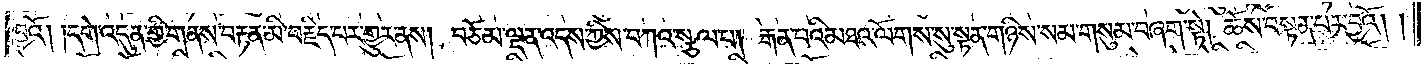བྱའོ། །དགེ་འདུན་གྱི་གནས་བརྟན་མི་བརྗིད་པར་གྱུར་ནས། བཅོམ་ལྡན་འདས་ཀྱིས་བཀའ་སྩལ་པ། རྒན་པའི་མཐའ་ལོགས་སུ་སྟན་གཉིས་སམ་གསུམ་བཞག་སྟེ། ཆོས་བསྟན་པར་བྱའོ། །
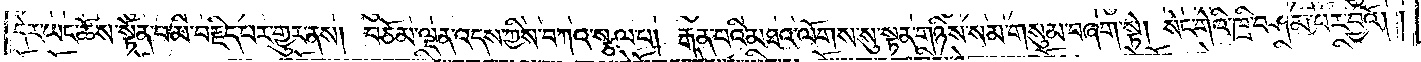དེར་ཡང་ཆོས་སྟོན་པ་མི་བརྗིད་པར་གྱུར་ནས། བཅོམ་ལྡན་འདས་ཀྱིས་བཀའ་སྩལ་པ། རྒན་པའི་མཐའ་ལོགས་སུ་སྟན་གཉིས་སམ་གསུམ་བཞག་སྟེ། སེང་གེའི་ཁྲི་བཤམ་པར་བྱའོ། །
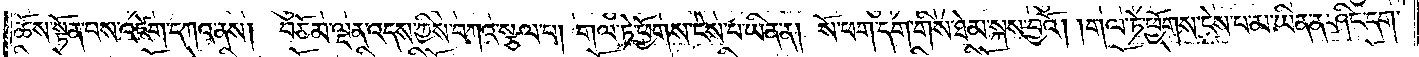ཆོས་སྟོན་པས་འཛེག་དཀའ་ནས། བཅོམ་ལྡན་འདས་ཀྱིས་བཀའ་སྩལ་པ། གལ་ཏེ་ཕྱོགས་ངེས་པ་ཡིན་ན། སོ་ཕག་དག་གིས་ཐེམ་སྐས་བྱའོ། །གལ་ཏེ་ཕྱོགས་ངེས་པ་མ་ཡིན་ན་ཤིང་དག་
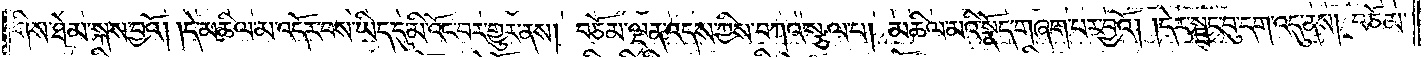གིས་ཐེམ་སྐས་བྱའོ། །དེ་མཆིལ་མ་འདོར་བས་ཡིད་དུ་མི་འོང་བར་གྱུར་ནས། བཅོམ་ལྡན་འདས་ཀྱིས་བཀའ་སྩལ་པ། མཆིལ་མའི་སྣོད་གཞག་པར་བྱའོ། །དེར་སྦྲང་བུ་དག་འདུ་ནས། བཅོམ་
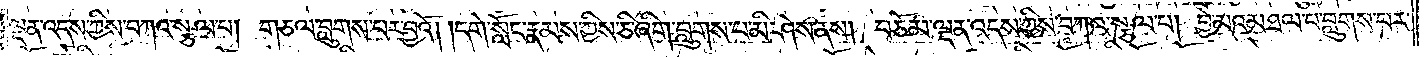ལྡན་འདས་ཀྱིས་བཀའ་སྩལ་པ། གཅལ་བླུགས་པར་བྱའོ། །དགེ་སློང་རྣམས་ཀྱིས་ཅི་ཞིག་བླུགས་པ་མི་ཤེས་ནས། བཅོམ་ལྡན་འདས་ཀྱིས་བཀའ་སྩལ་པ། བྱེ་མའམ་ཐལ་པ་བླུགས་པར་
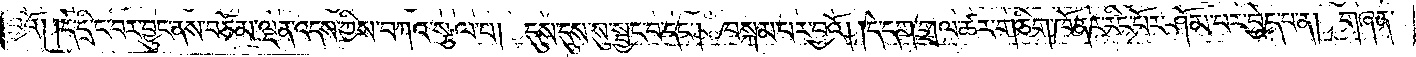བྱའོ། །དེ་དྲི་ང་བར་བྱུང་ནས་བཅོམ་ལྡན་འདས་ཀྱིས་བཀའ་སྩལ་པ། དུས་དུས་སུ་སྦྱང་བ་དང༌། བསྐམ་པར་བྱའོ། །དེ་དག་གྲལ་ཚར་གཅིག་ཁོ་ནར་རིང་པོར་ཤོམ་པར་བྱེད་པ་ན། གཞན་
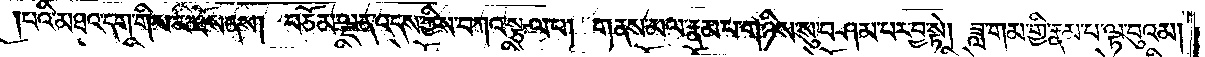པའི་མཐའ་དག་གིས་མི་ཐོས་ནས། བཅོམ་ལྡན་འདས་ཀྱིས་བཀའ་སྩལ་པ། གནས་མལ་རྣམ་པ་གཉིས་སུ་བཤམ་པར་བྱ་སྟེ། ཟླ་གམ་གྱི་རྣམ་པ་ལྟ་བུའམ་
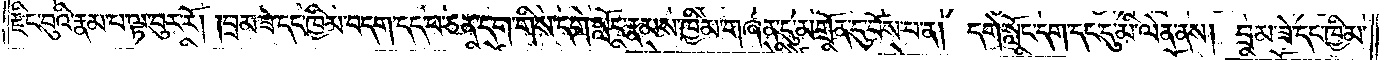རྫིང་བུའི་རྣམ་པ་ལྟ་བུར་རོ། །བྲམ་ཟེ་དང་ཁྱིམ་བདག་དད་པ་ཅན་དག་གིས་དགེ་སློང་རྣམས་ཁྱིམ་གཞན་དུ་མགྲོན་དུ་བོས་པ་ན། དགེ་སློང་དག་དང་དུ་མི་ལེན་ནས། བྲམ་ཟེ་དང་ཁྱིམ་
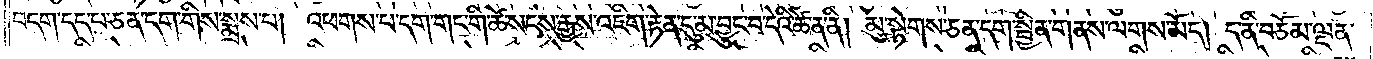བདག་དད་པ་ཅན་དག་གིས་སྨྲས་པ། འཕགས་པ་དག་གང་གི་ཚེ་སངས་རྒྱས་འཇིག་རྟེན་དུ་མ་བྱུང་བ་དེའི་ཚེ་ན་ནི། མུ་སྟེགས་ཅན་དག་སྦྱིན་གནས་ལགས་མོད། ད་ནི་བཅོམ་ལྡན་
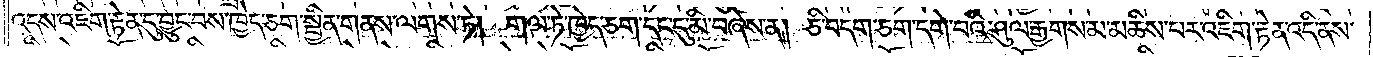འདས་འཇིག་རྟེན་དུ་བྱུང་བས་ཁྱེད་ཅག་སྦྱིན་གནས་ལགས་ཏེ། གལ་ཏེ་ཁྱེད་ཅག་དང་དུ་མི་བཞེས་ན། ཅི་བདག་ཅག་དགེ་བའི་ཤུལ་རྒྱགས་མ་མཆིས་པར་འཇིག་རྟེན་འདི་ནས་
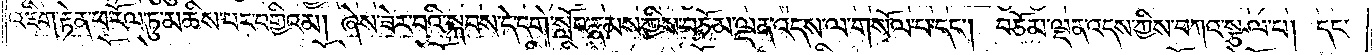འཇིག་རྟེན་ཕ་རོལ་ཏུ་མཆིས་པར་བགྱིའམ། ཞེས་ཟེར་བའི་སྐབས་དེ་དགེ་སློང་རྣམས་ཀྱིས་བཅོམ་ལྡན་འདས་ལ་གསོལ་པ་དང༌། བཅོམ་ལྡན་འདས་ཀྱིས་བཀའ་སྩལ་པ། དང་
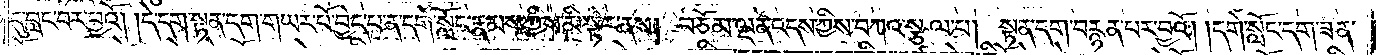དུ་བླང་བར་བྱའོ། །དེ་དག་སྟན་དག་གཡར་པོ་བྱེད་པ་ན་དགེ་སློང་རྣམས་ཀྱིས་མི་སྟེར་ནས། བཅོམ་ལྡན་འདས་ཀྱིས་བཀའ་སྩལ་པ། སྟན་དག་བརྙན་པར་བྱའོ། །དགེ་སློང་དག་ཟན་
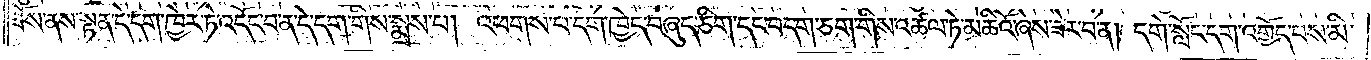ཟོས་ནས་སྟན་དེ་དག་ཁྱེར་ཏེ་འདོང་བ་ན་དེ་དག་གིས་སྨྲས་པ། འཕགས་པ་དག་ཁྱེད་བཞུད་ཅིག་དང་བདག་ཅག་གིས་འཚལ་ཏེ་མཆིའོ་ཞེས་ཟེར་བ་ན། དགེ་སློང་དག་འགྱོད་པས་མི་
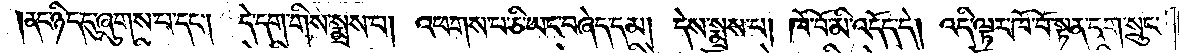ནང་ཉིད་དུ་ཞུགས་པ་དང༌། དེ་དག་གིས་སྨྲས་པ། འཕགས་པ་ཅི་ཡང་བཞེད་དམ། དེས་སྨྲས་པ། ཁོ་བོ་མི་འདོད་དེ། འདི་ལྟར་ཁོ་བོ་སྟན་དག་སྲུང་
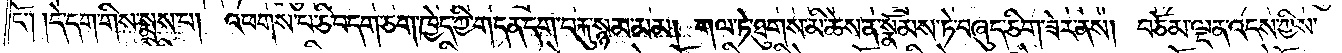ངོ༌། །དེ་དག་གིས་སྨྲས་པ། འཕགས་པ་ཅི་བདག་ཅག་ཁྱེད་ཀྱི་གདན་དག་བརྐུ་སྙམ་མམ། གལ་ཏེ་ཐུགས་མི་ཆེས་ན་སྣོམས་ཏེ་བཞུད་ཅིག་ཟེར་ནས། བཅོམ་ལྡན་འདས་ཀྱིས་
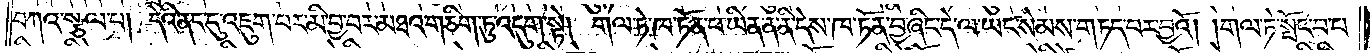བཀའ་སྩལ་པ། དེའི་ནང་དུ་འཇུག་པར་མི་བྱ་བར་མཐའ་གཅིག་ཏུ་འདུག་སྟེ། གལ་ཏེ་ཁ་ཏོན་པ་ཡིན་ན་ནི་དེས་ཁ་ཏོན་བྱ་ཞིང་དེ་ལ་ཡང་སེམས་གཏད་པར་བྱའོ། །གལ་ཏེ་སྤོང་བ་པ་
